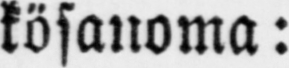kösanoma:
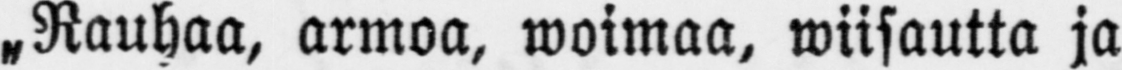˶ Rauhaa, armoa, woimaa, wiisautta ja
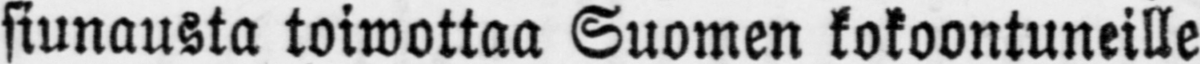siunausta toiwottaa Suomen kokoontuneille
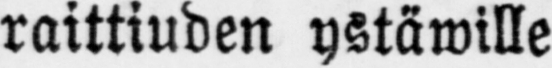raittiuden ystäwille
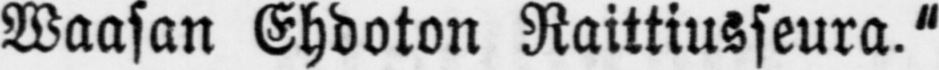Waasan Ehdoton Raittiusseura."
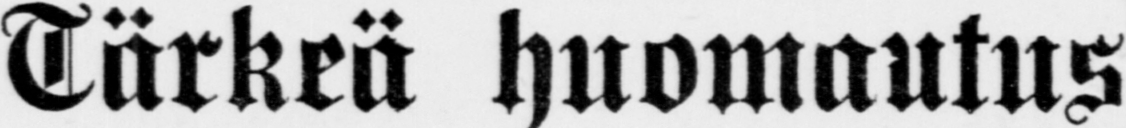Tärkeä huomautus
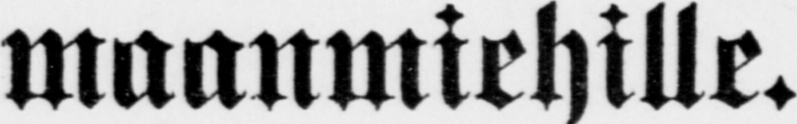maanmiehille.
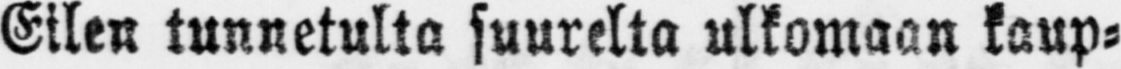Eilen tunnetulta suurelta ulkomaan kaup-
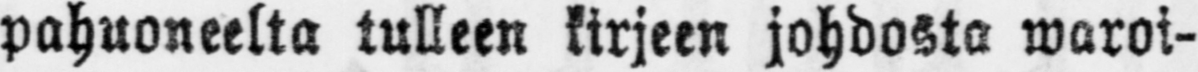pahuoneelta tulleen kirjeen johdosta waroi-
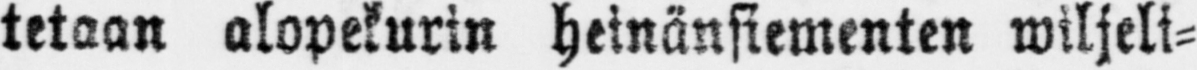tetaan alopekurin heinänsiementen wiljeli-
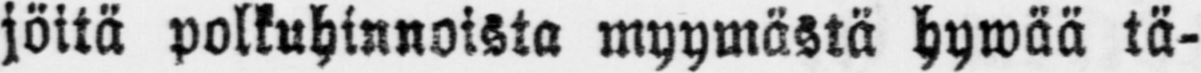jöitä polkuhinnoista myymästä hywää tä-
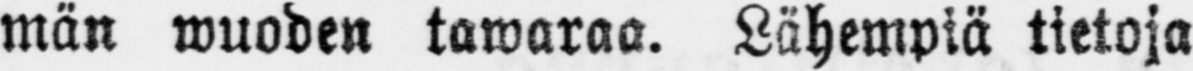män wuoden tawaraa. Lähempiä tietoja
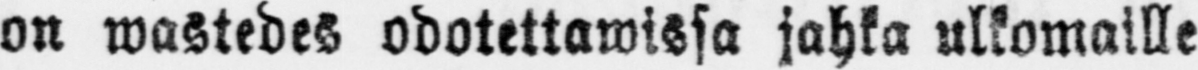on wastedes odotettawissa jahka ulkomaille
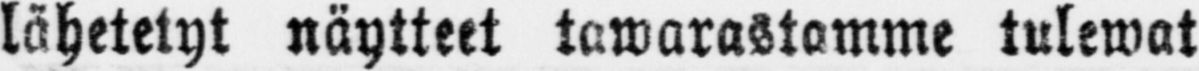lähetetyt näytteet tawarastamme tulewat
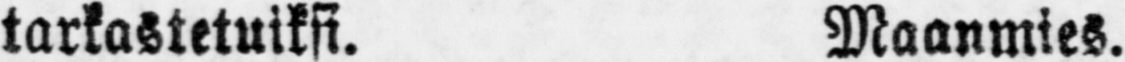tarkastetuiksi. Maanmies.
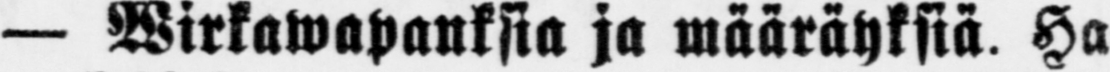— Wirkawapauksia ja määräyksiä. Ha-
